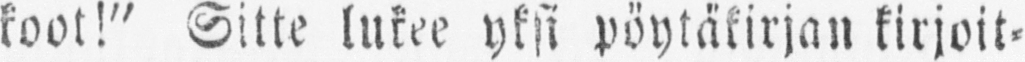koot!" Sitte lukee yksi pöytäkirjan kirjoit-
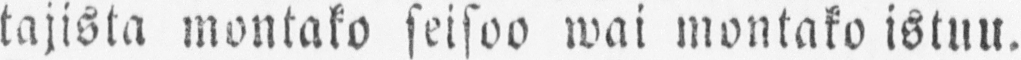tajista montako seisoo wai montako istuu.
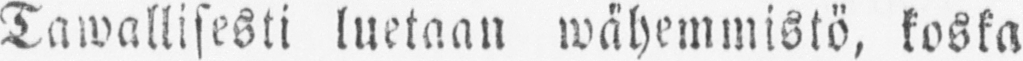Tawallisesti luetaan wähemmistö, koska
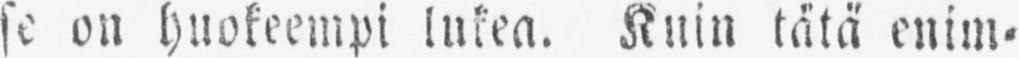se on huokeempi lukea. Kuin tätä enim-
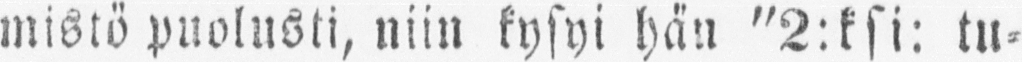mistö puolusti, niin kysyi hän "2:ksi: tu-
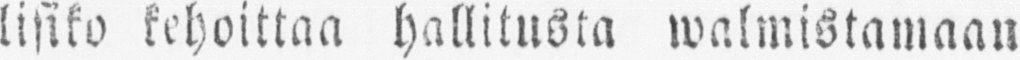lisiko kehoittaa hallitusta walmistamaan
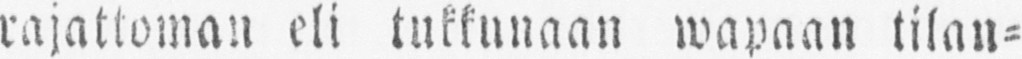rajattoman eli tukkunaan wapaan tilan-
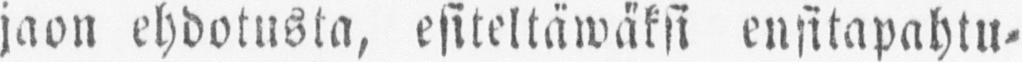jaon ehdotusta, esiteltäwäksi ensitapahtu-
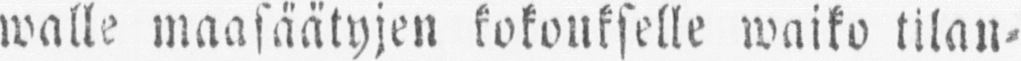walle maasäätyjen kokoukselle waiko tilan-
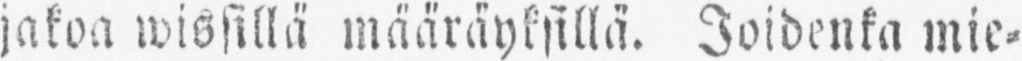jakoa wissillä määräyksillä. Joidenka mie-
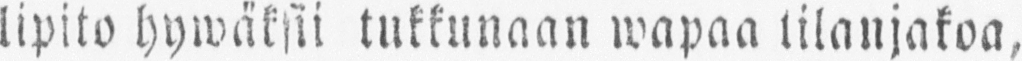lipito hywäksii tukkunaan wapaa tilanjakoa,
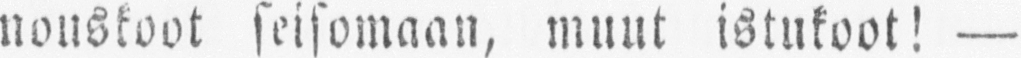nouskoot seisomaan, muut istukoot! —
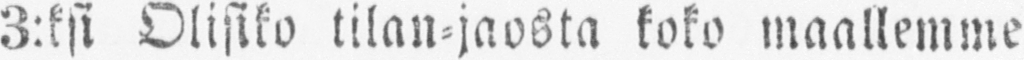3:ksi Olisiko tilan-jaosta koko maallemme
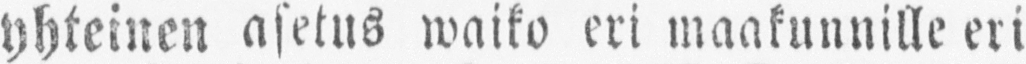yhteinen asetus waiko eri maakunnille eri
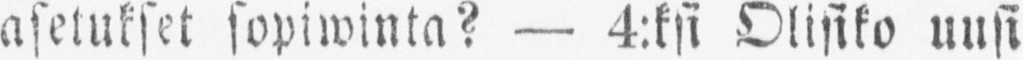asetukset sopiwinta? — 4:ksi Olisiko uusi
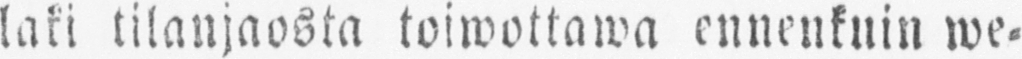laki tilanjaosta toiwottawa ennenkuin we-
